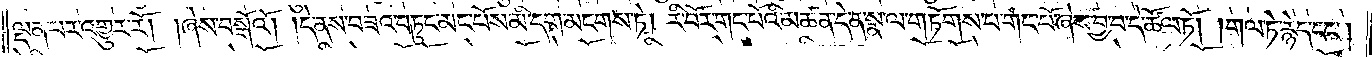ལྡན་པར་འགྱུར་རོ། །ཞེས་བསྒོའོ། །དེ་ནས་བཟའ་བཏུང་མང་པོས་མི་དག་མངགས་ཏེ། རི་བོར་གང་པོའི་མཚན་དེ་ན་སྣ་ལ་གཏོགས་པ་གང་པོ་ཞེས་བྱ་བ་དེ་ཚོལ་ཏོ། །གལ་ཏེ་རྙེད་དང༌།
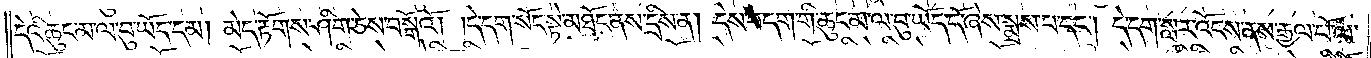དེའི་ཆུང་མ་ལ་བུ་ཡོད་དམ། མེད་རྟོགས་ཤིག་ཅེས་བསྒོའོ། །དེ་དག་སོང་སྟེ་མཐོང་ནས་དྲིས་ན། དེས་བདག་གི་ཆུང་མ་ལ་བུ་ཡོད་དོ་ཞེས་སྨྲས་པ་དང༌། དེ་དག་སླར་འོངས་ནས་རྒྱལ་པོ་ལ་
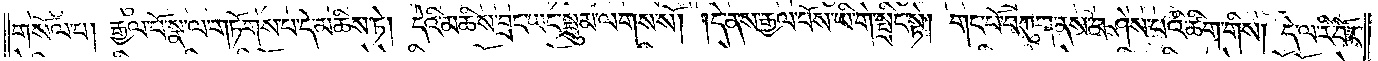གསོལ་པ། རྒྱལ་པོ་སྣ་ལ་གཏོགས་པ་དེ་མཆིས་ཏེ། དེའི་མཆིས་བྲང་ཡང་སྦྲུམ་ལགས་སོ། །དེ་ནས་རྒྱལ་པོས་ཡི་གེ་སྤྲིང་སྟེ། གང་པོ་བཀུག་ནས་བཤེས་པའི་ཚིག་གིས། དེ་ལ་རི་བོར་
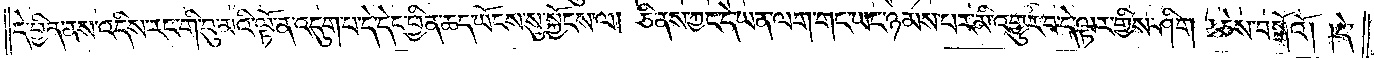དེ་བྱིན་ནས་འདིས་རང་གི་བུ་མའི་ལྟོ་ན་འདུག་པ་དེ་དེང་ཕྱིན་ཆད་ཡོངས་སུ་སྐྱོངས་ལ། ཅི་ནས་ཀྱང་དེ་ཡན་ལག་གང་ཡང་ཉམས་པར་མི་འགྱུར་བ་དེ་ལྟར་གྱིས་ཤིག །ཅེས་བསྒོའོ། །དེ་
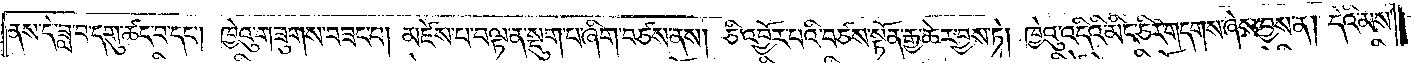ནས་དེ་ཟླ་བ་དགུ་ཚང་བ་དང༌། ཁྱེའུ་གཟུགས་བཟང་བ། མཛེས་པ་བལྟ་ན་སྡུག་པ་ཞིག་བཙས་ནས། ཅི་འབྱོར་པའི་བཙས་སྟོན་རྒྱ་ཆེར་བྱས་ཏེ། ཁྱེའུ་འདིའི་མིང་ཅིར་གདགས་ཞེས་བྱས་ན། དེའི་མས་
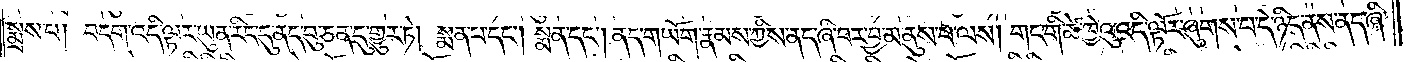སྨྲས་པ། བདག་འདི་ལྟ་ཡུན་རིང་དུ་ནད་བུ་ཅན་དུ་གྱུར་ཏེ། སྨན་པ་དང༌། སྨན་དང༌། ནད་གཡོག་རྣམས་ཀྱིས་ནད་ཞི་བར་བྱ་མ་ནུས་པ་ལས། གང་གི་ཚེ་ཁྱེའུ་འདི་ལྟོར་ཞུགས་པ་དེ་ཉིད་ནས་ནད་ཞི་
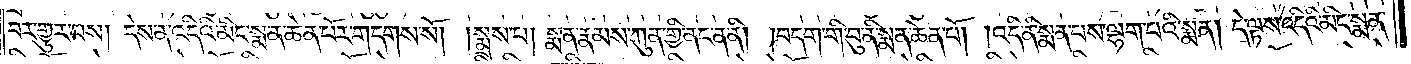བར་གྱུར་པས། དེས་ན་འདིའི་མིང་སྨན་ཆེན་པོར་གདགས་སོ། །སྨྲས་པ། སྨན་རྣམས་ཀུན་གྱི་ནང་ན་ནི། །བདག་གི་བུ་ནི་སྨན་ཆེན་པོ། །འདི་ནི་སྨན་པས་ལྷག་པའི་སྨན། དེ་ལྟས་འདིའི་མིང་སྨན་
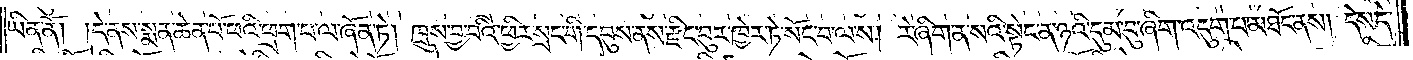ཡིན་ནོ། །དེ་ནས་སྨན་ཆེན་པོ་ཕའི་ཕྲག་པ་ལ་ཞོན་ཏེ། ཁྲུས་བྱ་བའི་ཕྱིར་སྲང་གི་དབུས་ནས་རྫིང་བུར་ཁྱེར་ཏེ་སོང་བ་ལས། རེ་ཞིག་ན་སའི་སྟེང་ན་ཉའི་དུམ་བུ་ཞིག་འདུག་པ་མཐོང་ནས། དེས་དེ་
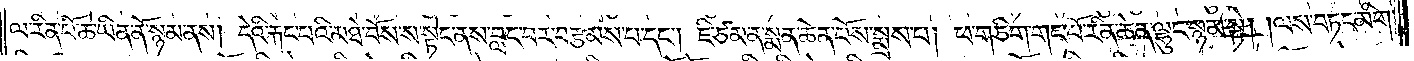ལ་རིན་པོ་ཆེ་ཡིན་ནོ་སྙམ་ནས། དེའི་རྐང་པའི་མཐེ་བོས་ས་སྟེང་ནས་བླང་བར་བརྩམས་པ་དང༌། ཇི་ཙམ་ན་སྨན་ཆེན་པོས་སྨྲས་པ། ཕ་གཅིག་གང་པོ་རིན་ཆེན་ལྷུང་སྙམ་སྟེ། །ལས་བཏང་མིག་
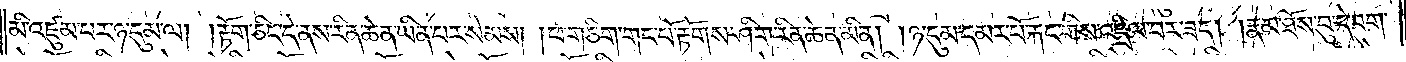མི་འཛུམ་པར་ཉ་དུམ་ལ། །རྟོག་ཅིང་དེ་ནས་རིན་ཆེན་ཡིན་པར་སེམས། །ཕ་གཅིག་གང་པོ་རྟོགས་ཤིག་རིན་ཆེན་མིན། །ཉ་དུམ་དམར་པོ་རྐང་གིས་འདྲིལ་བར་ཟད། །རྣམ་ཐོས་བུ་དེ་བག་
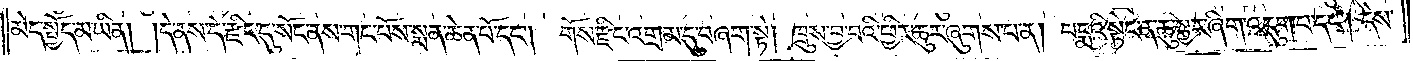མེད་སྤྱོད་མ་ཡིན། །དེ་ནས་དེ་རྫིང་དུ་སོང་ནས་གང་པོས་སྨན་ཆེན་པོ་དང༌། གོས་རྫིང་འགྲམ་དུ་བཞག་སྟེ། ཁྲུས་བྱ་བའི་ཕྱིར་ཆུར་ཞུགས་པ་ན། པདྨའི་སྟེང་ན་ཆུ་སྐྱར་ཞིག་འདུག་པ་དང༌། དེས་
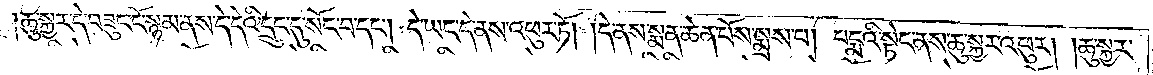ཆུ་སྐྱར་དེ་བཟུང་ངོ་སྙམ་ནས་དེ་དེའི་དྲུང་དུ་སོང་བ་དང༌། དེ་ཡང་དེ་ནས་འཕུར་ཏོ། །དེ་ནས་སྨན་ཆེན་པོས་སྨྲས་པ། པདྨའི་སྟེང་ནས་ཆུ་སྐྱར་འཕུར། །ཆུ་སྐྱར་
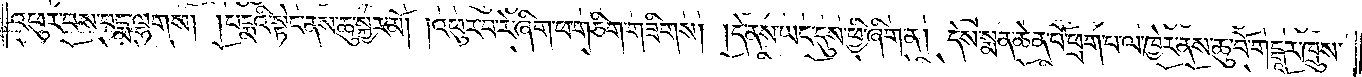འཕུར་བས་པདྨ་ལྷགས། །པདྨའི་སྟེང་ནས་ཆུ་སྐྱར་མོ། །འཕུར་བ་རེ་ཞིག་ཕ་གཅིག་གཟིགས། །དེ་ནས་ཡང་དུས་ཕྱི་ཞིག་ན། དེས་སྨན་ཆེན་པོ་ཕྲག་པ་ལ་ཁྱེར་ནས་ཆུ་བོ་གངྒཱར་ཁྲུས་
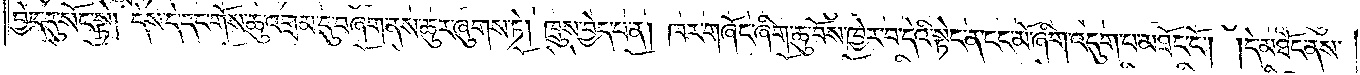བྱེད་དུ་སོང་སྟེ། དེས་དེ་དང་གོས་ཆུ་འགྲམ་དུ་བཞག་ནས་ཆུར་ཞུགས་ཏེ། ཁྲུས་བྱེད་པ་ན། ཁར་གཞོང་ཞིག་ཆུ་བོས་ཁྱེར་བ་དེའི་སྟེང་ན་ངང་མོ་ཞིག་འདུག་པ་མཐོང་ངོ༌། །དེ་མཐོང་ནས་
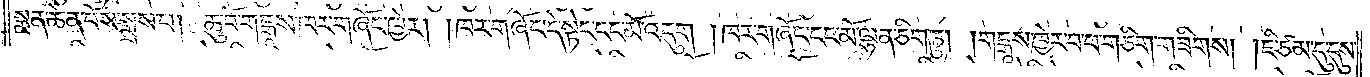སྨན་ཆེན་པོས་སྨྲས་པ། ཆུ་བོ་གངྒཱས་ཁར་གཞོང་ཁྱེར། །ཁར་གཞོང་དེ་སྟེང་ངང་མོ་འདུག །ཁར་གཞོང་ངང་མོ་ལྷན་ཅིག་ཏུ། །གངྒཱས་ཁྱེར་བ་ཕ་གཅིག་གཟིགས། །ཇི་ཙམ་དུ་དུས་
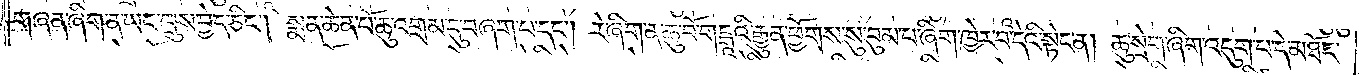གཞན་ཞིག་ན་ཡང་ཁྲུས་བྱེད་ཅིང༌། སྨན་ཆེན་པོ་ཆུ་འགྲམ་དུ་བཞག་པ་དང༌། རེ་ཞིག་ན་ཆུ་བོ་གངྒཱའི་རྒྱུན་ཕྱོགས་སུ་བུམ་པ་ཞིག་ཁྱེར་བ་དེའི་སྟེང་ན། ཆུ་སྲེག་ཞིག་འདུག་པ་དེ་མཐོང་
